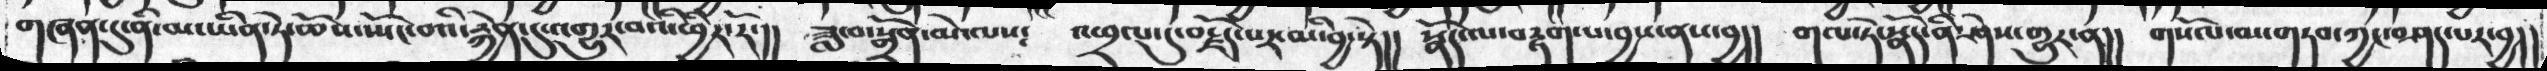གཞན་དུ་ནི་མ་ཡིན་ཏེ་ཆོས་ཡོང་བའི་རྐྱེན་དུ་འགྱུར་བའི་ཕྱིར་རོ་།།  ཟླ་བ་སྒྲོན་མེ་ལས༴  འཕྲལ་དུ་བརྗོད་པར་མི་བྱ་སྟེ།། སྣོད་ལ་བརྟག་པ་བྱས་ནས་བྱ།། གལ་ཏེ་སྣོད་ནི་ཤེས་གྱུར་ན།། གསོལ་བ་གཏབ་ཀྱང་བཤད་པར་བྱ།།
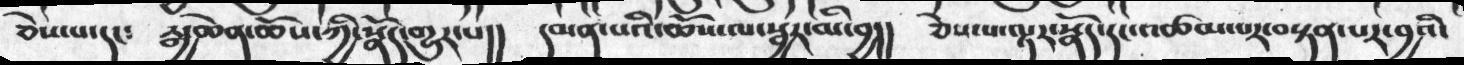ཅེས་པ་དང༴ རྒྱ་ཆེན་ཆོས་ཀྱི་སྣོད་གྱུར་པ།། དམན་པའི་ཆོས་ལ་སྦྱར་མི་བྱ།། ཅེས་པ་ལྟར་སྣོད་དང་འཚམ་པར་བསྟན་པར་བྱའི་
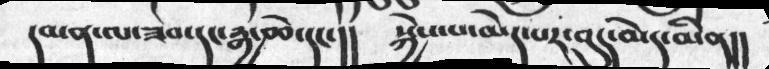དམན་ལ་ཟབ་དང་རྒྱ་ཆེ་དང་།། སྐྱེས་པ་མེད་པར་བུད་མེད་མིན།།
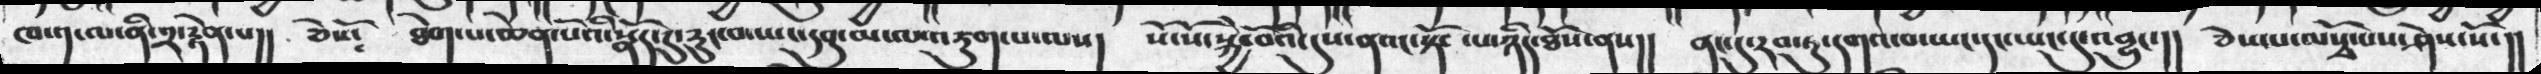ཁ་༡་ལ་ནི་༢་རྟེན་པ།། ཅེསོ༴ ཐེག་པ་ཆེན་པོའི་སྣོད་དུ་རུང་བ་ཡང་དབུ་མ་ལ་འཇུག་པ་ལས།  སོ་སོ་སྐྱེ་བོའི་དུས་ནའང་སྟོང་པ་ཉིད་ཐོས་ནས།།  ནང་དུ་རབ་ཏུ་དགའ་བ་ཡང་དང་ཡང་དུ་འབྱུང་།།  ཅེས་པ་ལསྭོ་པས་ཤེས་སོ་།།
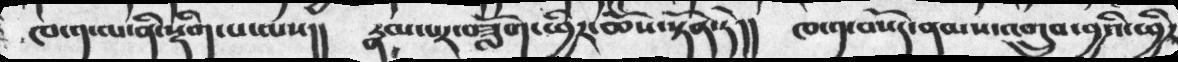ཁ་༡་ལ་ནི་སྡིག་པ་ལས།།  རྣམ་པར་བཟློག་ཕྱིར་ཆོས་སྟོན་ཏེ།།  ཁ་༡་བསོད་ནམས་འགྲུབ་བྱའི་ཕྱིར
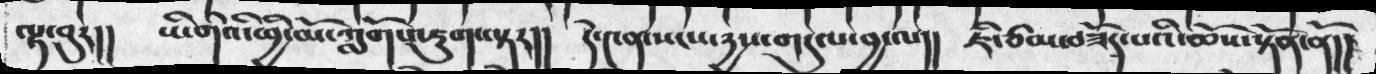ལྟ་བུར།།  ཡིགེའི་ཕྱི་མོ་ཀློགས་འཇུག་ལྟར།།  དེ་༤ན་སངས་རྱས་གདུལ་བྱ་ལ།།  ཇི་ཙམ་བཟོད་པའི་ཆོས་སྟོན་ནོ།།
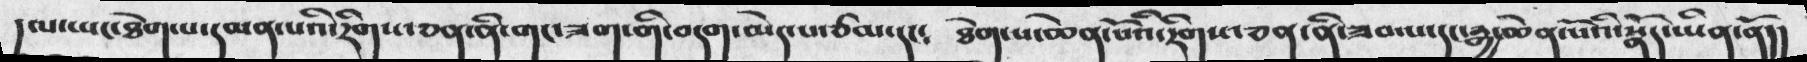།ལ་ཡང་ཐེག་པ་དམན་པའི་རིགས་ཅན་ནི་གང་ཟག་གི་བདག་མེད་པ་ཙམ་དང༴  ཐེག་པ་ཆེན་པོའི་རིགས་ཅན་ནི་ཟབ་པ་དང་རྒྱ་ཆེན་པོའི་སྣོད་ཡིན་ནོ།།
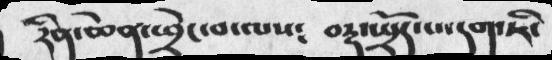རིན་ཆེན་ཕྲེང་བ་ལས༴  བརྡ་སྤྲོད་པ་དག་ཇི་
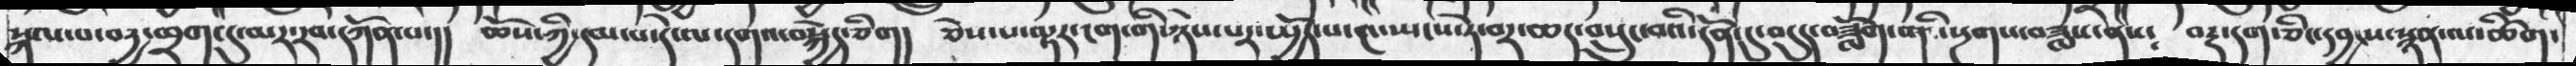སྐལ་པ་བདྱ་ཕྲག་དུ་མར་རབ་དཀོན་པ་།། ཆོས་ཀྱི་དམ་པ་དེ་ལ་དགའ་བསྐྱེད་ཅིག། ཅེས་པ་ལྟར་ངག་གི་ཉེས་པར་སྤྱོད་པ་༤་སྤངས་ཏེ་བར་ཆད་བསྲུང་བའི་དོན་དུ་བདུད་བཟློག་གི་སྔགས་བཟླས་ནས༴ བརྡ་དག་ཅིང་དབྱངས་སྙན་ལ་ཚིག་
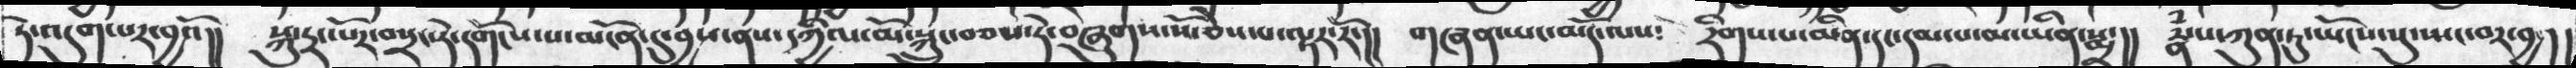ཏེ་འདུག་པར་བྱའོ།། སྐུ་དྲང་པོར་བསྲང་ཏེ་དགོངས་པ་མངོན་དུ་བྱས་ནས་དཀྱིལ་མོ་སྐྲུང་བཅས་ཏེ་བཞུགས་སོ་ཅེས་པ་ལྟར་རོ་།། གཞན་ཡང་མདོ་ལས༴ རིགས་པ་མིན་དང་དམ་པ་མ་ཡིན་སྨྲ་།། རྣཾས་ཀུན་ཏུ་ཡོངས་སུ་སྤང་བར་བྱ།།
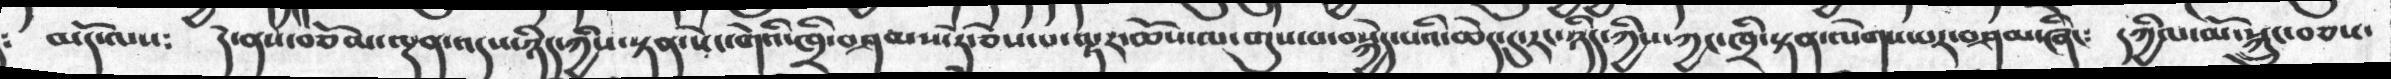མདོ་ལས༴  དེ་ནས་བཅོམ་ལྡན་འདས་ཉིད་ཀྱིས་སྟན་སེང་གེའི་ཁྲི་བཤམས་དེ་ཅེས་པ་ལྟར་ཆོས་ལ་གུས་པ་བསྐྱེད་པའི་ཆེད་དུ་རང་ཉིད་ཀྱིས་ཀྱང་ཁྲི་སྟན་ལེགས་པར་བཤམ་ཞིང༴  དཀྱིལ་མོ་སྐྲུང་བཅས་
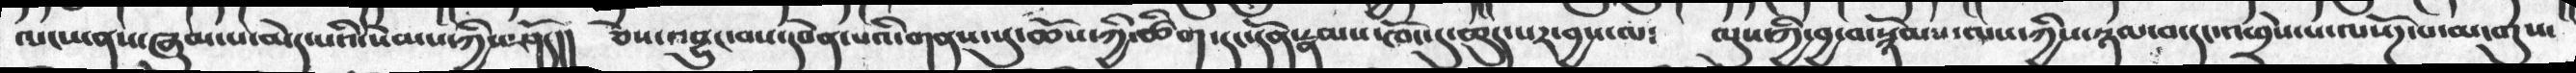ལངས་ནས་ཞུམ་པ་མེད་པའི་སེམས་ཀྱིས་ཤོད།། ཅེས་འབྱུང་བས་དབེན་པའི་གནས་སུ་ཆོས་ཀྱི་ཚིག་དང་དོན་རྣམས་ཁོང་དུ་ཆུད་པར་བྱས་ལ༴ ལུས་ཀྱི་བྱ་བ་སྙོམས་ལས་ཀྱིས་ཉམ་བ་དང་འཕྲེས་པ་ལསོཌ་པ་མ་གུས་
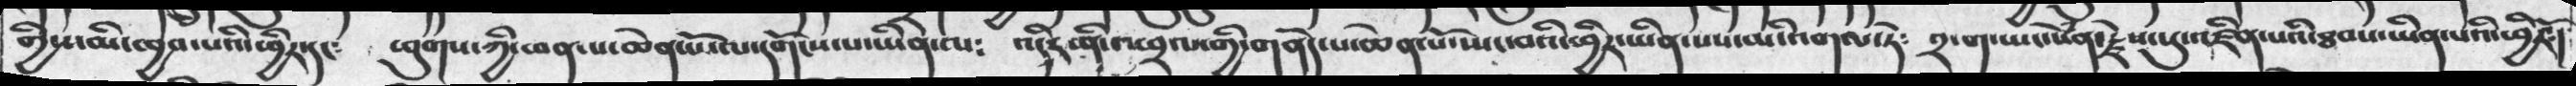གྱིས་མི་ཁྱབ་པི་ཕྱིར་དང༴ ཕུགས་ཀྱི་ཕན་པ་ཆེན་པོ་ལ་དགོངས་པ་ཡིན་ལ༴ འདིར་ནི་འཕྲལ་གྱི་གནོད་པ་ཆེན་པོ་ཡང་བའི་ཕྱིར་ཡིན་པས་མི་འགལ་ཏེ༴ ༢་ག་ཡང་སེཾན་རྗེས་སུ་འཛིན་པའི་ཐབས་ཡིན་པའི་ཕྱིརོ༴།
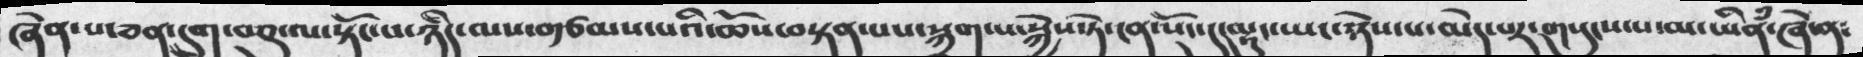ཞེན་པ་ཅན་དྲུག་བཅུ་ལ་སྟོང་པ་ཉིད་ལས་བརྩམས་པའི་ཆོས་བསྟན་པས་སྐྲགས་པ་སྐྱེས་ཏེ་ངན་སོང་དུ་ལྟུང་ཡང་ཉེས་པ་མེད་པར་གསུངས་པ་མ་ཡིནཾ་ཞེ་ན༴
